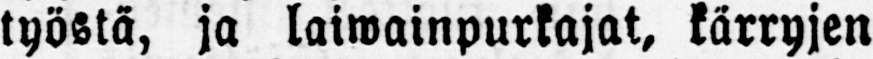työstä, ja laiwainpurkajat, kärryjen
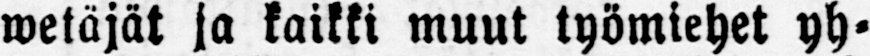wetäjät ja kaikki muut työmiehet yh-
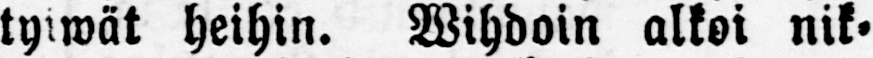tyiwät heihin. Wihdoin alkoi nik-
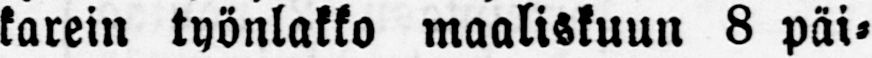karein työnlakko maaliskuun 8 päi-
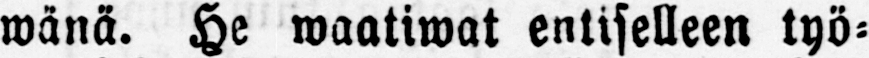wänä. He waatiwat entiselleen työ-
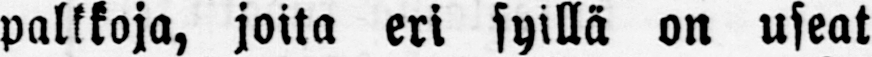palkkoja, joita eri syillä on useat
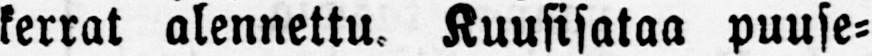kerrat alennettu. Kuusisataa puuse-
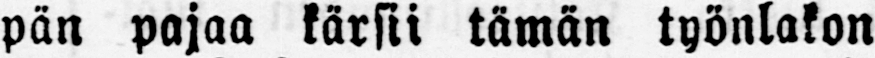pän pajaa kärsii tämän työnlakon
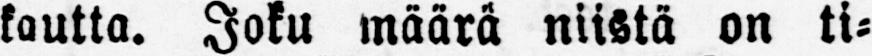kautta. Joku määrä niistä on ti-
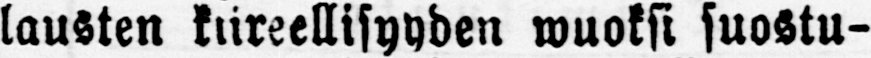lausten kiireellisyyden wuoksi suostu-
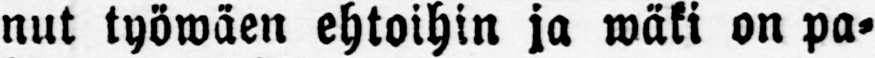nut työwäen ehtoihin ja wäki on pa-
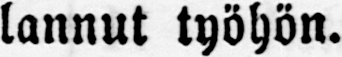lannut työhön.
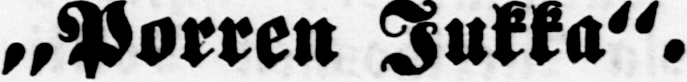„Porren Jukka".
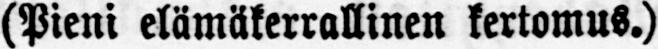(Pieni elämäkerrallinen kertomus.)
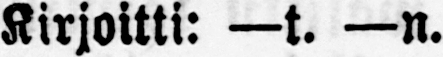Kirjoitti: —t. —n.
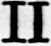II
